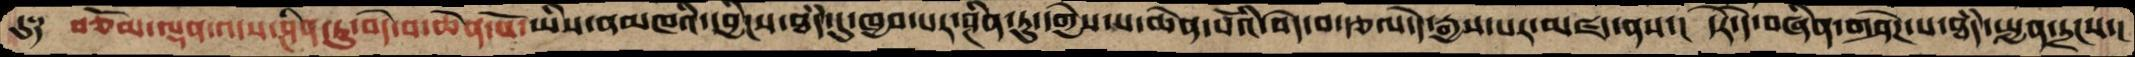དུ༑  བཅོམ་ལྡན་འདས་ཤིན་ཏུ་བདེ་བ་ཆེན་པོ་ཡིས་ནམཁའི་དབྱིངས་ཐཾད་དུ་ཁྱབ་པར་ཤིན་ཏུ་དགྱེས་པ་ཆེན་པོའི་བདེ་བ་རྩལ་དེ་རྒྱས་པར་མཛད་ནས་།  དེར་དེ་བཞིན་གཤེགས་པ་ཐཾད་སྤྱན་དྲངས་།
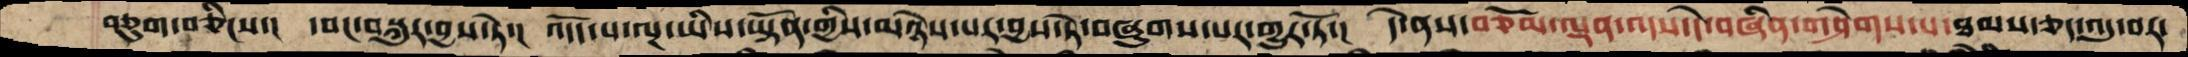བཅུག་བཅིངས་།  དབང་བསྐུར་བྱས་ཏེ་།  འདོད་པ་ལྔ་ཡིས་ཡྟོན་གྱིས་མཉེས་པར་བྱས་ཏེ་བཞུགས་པར་གྱུར་ཏོ་།  དེ་ནས་བཅོམ་ལྡན་འདས་དེ་བཞིན་གཤེགས་པ་ཐམས་ཅད་འདུ་བར་
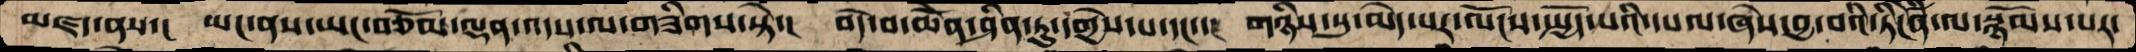མཛད་ནས་།  ཡང་ནས་ཡང་བཅོམ་ལྡན་འདས་ལ་གཟིགས་སྟེ་།  བདེ་བ་ཆེོན་ཤིན་ཏུ་དགྱེས་པ་དང་་།  གཉིས་སུ་མེད་པར་ལོངས་སྤྱོད་པའི་དཔལ་ཞེས་བྱ་བའི་ཏིངེཛིན་ལ་སྙོམས་པར་
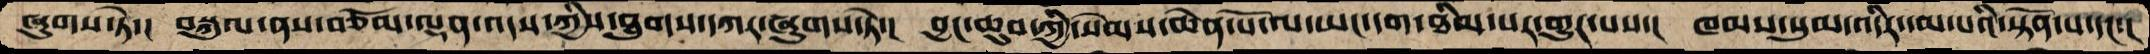ཞུགས་ཏེ་།  བསྐུལ་ནས་བཅོམ་ལྡན་འདས་ཀྱིས་ཐུགས་དཀར་ཞུགས་ཏེ་།  བྱང་ཆུབ་ཀྱི་སེམས་ཆེན་པོ་ལ་ཡང་དག་ཐིམ་པར་གྱུར་པས་།  ཁམས་སུམ་འདིར་དམ་པའི་སྟོན་པ་དང་།
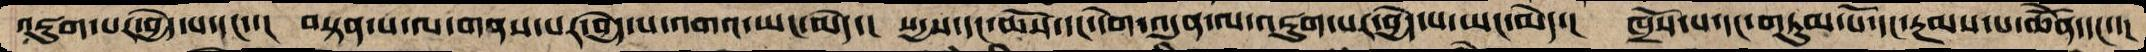འཇུག་པར་བྱེད་པ་དང་་།  བསྟན་པ་ལ་གནས་པར་བྱེད་པ་འགའ་ཡང་མེད་།  སདྱས་དང་ཆོས་དང་དགེ་འདུན་ལ་འཇུག་པར་བྱེད་པ་ཡང་མེད་།  ཁྲོས་པ་དང་གཏུམ་པོ་དང་རྔམས་པ་ཆེནོ་དང་་།
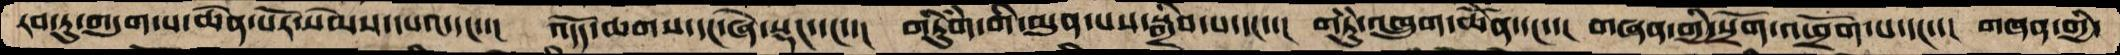རབ་ཏུ་གདུག་པ་ཆེན་པོར་སེམས་དཔའ་དང་་།  འདོད་ཆགས་དང་ཞེ་སྡང་དང་་།  གཏིུཾག་གི་མུན་པས་སྒྲིབ་པ་དང་་།  གཏུཾ་འཁྲུག་ཆེོན་དང་་།  གཞན་གྱི་སྲོག་འཕྲོག་པ་དང་་།  གཞན་གྱི་
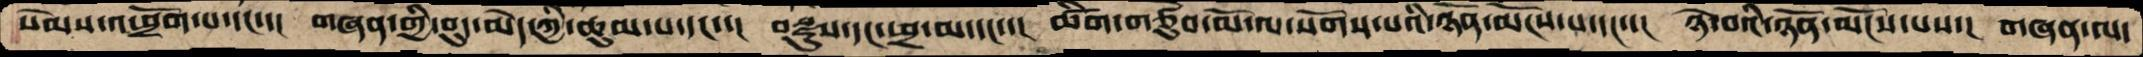སེམས་འཕྲོག་པ་དང་་།  གཞན་གྱི་བུད་མེད་ཀྱི་ཆུམ་པ་དང་་།  བརྫུས་དང་ཕྲ་མ་དང་་།  ཚིག་བཙུབ་མོ་ལ་སོགས་པའི་ཉོན་མོངས་པ་དང་་།  ཉེ་བའི་ཉོན་མོངས་པས་།  གཞན་ལ་
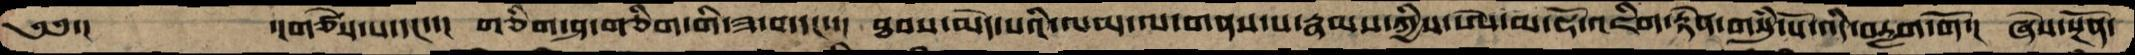༄༅་།       ་།གཙེས་པ་དང་་།  གཅིག་ཤ་གཅིག་གི་ཟ་བ་དང་་།  ཐབས་མེད་པའི་ལམ་ལ་གནས་པ་རྣམས་ཀྱིས་ཨེ་མ་ཧོ་འཇིག་རྟེན་གསུཾ་པོ་འདི་བརླག་གོ་།  ཞེས་སྔོན་
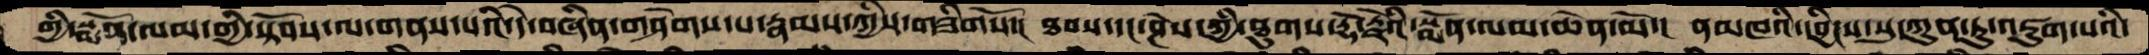གྱི་སྨོན་ལམ་གྱི་སྟོབས་ལ་གནས་པའི་དེ་བཞིན་གཤེགས་པ་རྣམས་ཀྱིས་གཟིགསོ་།  ཐབས་དང་ཤེས་ཀྱི་ཐུགས་རྡོ་རྗེའི་སྨོན་ལམ་ཆེན་མོ་།  ནམཁའི་དབྱིངས་སུ་ཀུན་ཏུ་འཇུག་པའི་
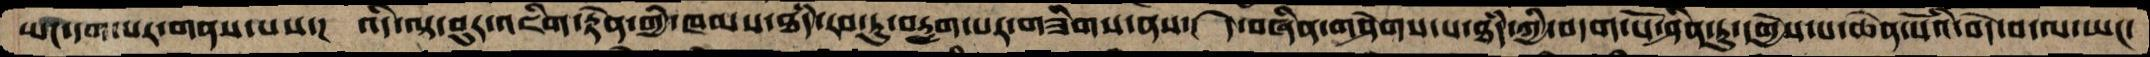ཡང་དག་པར་གནས་པས་།  འདི་ལྟ་བུར་འཇིག་རྟེན་གྱི་ཁམས་ཐཾད་རབ་ཏུ་བརླག་པར་གཟིགས་ནས་།  དེ་བཞིན་གཤེགས་པ་ཐཾད་ཀྱི་བདག་པོ་ཤིན་ཏུ་དགྱེས་པ་ཆེན་པོའི་བདེ་བ་ལ་ཡང་
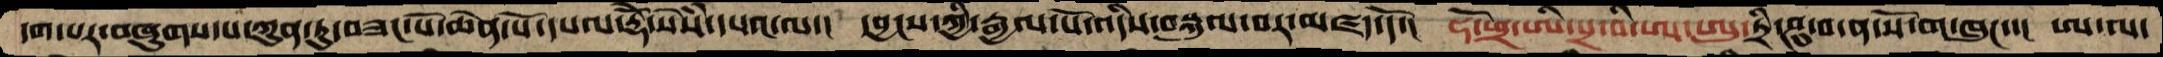དག་པར་བཞུགས་པ་ཀུན་ཏུ་བཟང་པོ་ཆེན་པོ་དཔལ་རྡོེ་སེཾས་དཔའ་ལ་།  དབྱིངས་ཀྱི་རྒྱལ་པོ་འདིས་བསྐུལ་བར་མཛད་དོ་།  ཧོ་ཕྲ་ཨི་པྲ་བི་ཨ་ཨུ་ཏྲི་ཤུ་བ་ན་སོ་ག་ཁུང་་།  ཨ་ལ་
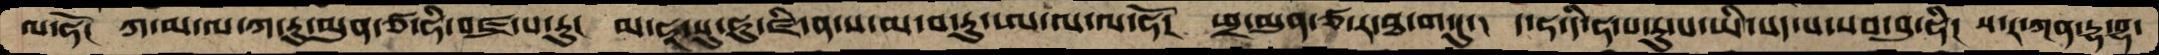ལ་ཧོ།  ཀ་མ་ལ་ཀ་རུ་མུན་ཙ་ཧི་བཛྲ་པ་རུ།  མ་ཧཱ་སུ་ཧུ་ཛི་ན་ས་མ་པ་རུ་ཨ་ལ་ལ་ཧོ།   ཕྲ་མུན་ཙ་ར་ཐ་ག་དུ་།  ད་ཧ་དི་ཧ་ས་རུ་པ་ཡི་སད་པ་སབ་བུ་ཧི།  ས་ར་ཀན་དྷ་བྷ་
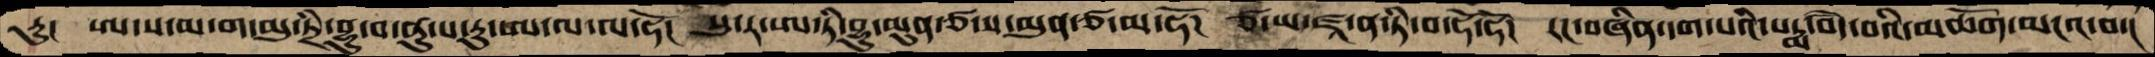ཏུ།   ཨ་ས་མ་ག་མུ་ཏྲི་བྷུ་བ་ནུ་ས་རུ་ཨ་ལ་ལ་ཧོ།  སུ་ར་ཨ་ཏི་བྷུ་མུན་ཙ་ས་མུན་ཙ་མ་ཧོ།  ཙ་ཡ་ཛཱ་ན་ཏི་བ་ཧེ་ཧོ།  རང་བཞིན་དག་པའི་པདྨ་བདེ་བའི་མཆོག་མངའ་བ་།
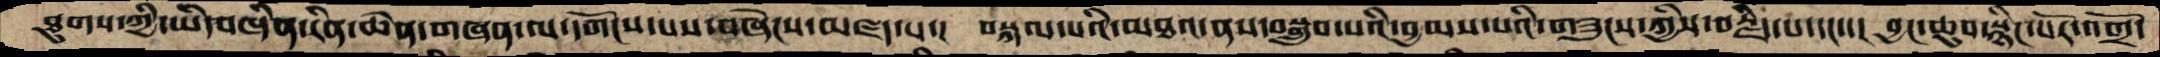ཐུགས་ཀྱི་ཡིད་བཞིན་རིན་ཆེན་གཞན་ལ་དགོངས་པས་བཞེངས་མཛད་པ་།  བསྐལ་པའི་མཐའ་ནས་བསྒྲུབ་པའི་བྱམས་པའི་གཟུངས་ཀྱིས་བརྗིད་པ་དང་་།  བྱང་ཆུབ་སྙིང་པོར་འགྲོ་
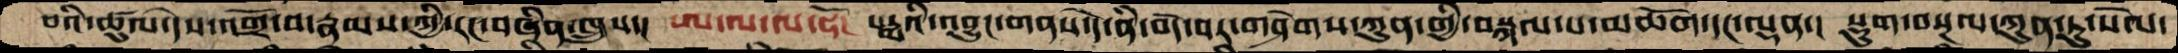བའི་ཚུལ་དེས་འགྲོ་བ་རྣམས་ཀྱི་རང་བཞིན་ཁྲུས་། ཨ་ལ་ལ་ཧོ།  པདྨའི་འབྱུང་གནས་དེ་ནི་བདེ་བར་གཤེགས་ཀུན་གྱི་བསྐལ་པ་མཆོག་དང་ལྡན་།  སྡུག་བསྔལ་ཀུན་ཏུ་སེལ་
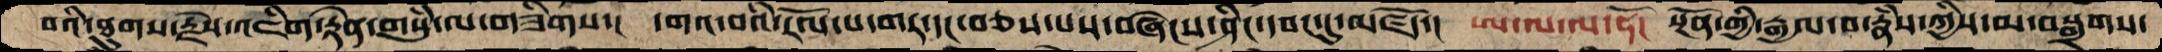བའི་ཐུགས་རྗེས་འཇིག་རྟེན་གསུཾ་ལ་གཟིགས་།  དགའ་བའི་རོལ་པ་གར་དང་བཅས་པས་བཞེངས་ཤིང་དབང་དུ་མཛོད་། ཨ་ལ་ལ་ཧོ།  སྔོན་གྱི་རྒྱལ་བ་རྣཾས་ཀྱིས་མ་བསྒྲགས་
